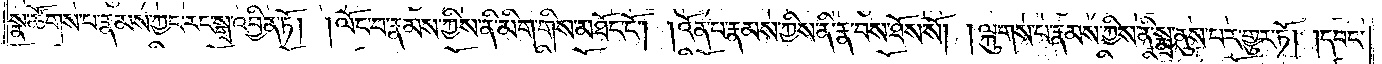སྣ་ཚོགས་པ་རྣམས་ཀྱང་རང་སྒྲ་འབྱིན་ཏོ། །ལོང་བ་རྣམས་ཀྱིས་ནི་མིག་གིས་མཐོང་ངོ༌། །འོན་པ་རྣམས་ཀྱིས་ནི་རྣ་བས་ཐོས་སོ། །ལྐུགས་པ་རྣམས་ཀྱིས་ནི་སྨྲ་ནུས་པར་གྱུར་ཏོ། །དབང་
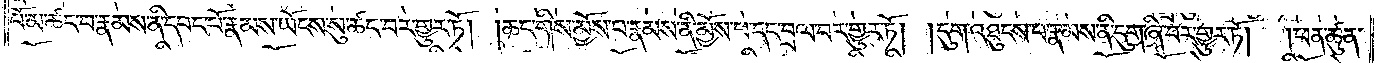པོ་མ་ཚང་བ་རྣམས་ནི་དབང་པོ་རྣམས་ཡོངས་སུ་ཚང་བར་གྱུར་ཏོ། །ཆང་གིས་མྱོས་པ་རྣམས་ནི་མྱོས་པ་དང་བྲལ་བར་གྱུར་ཏོ། །དུག་འཐུངས་པ་རྣམས་ནི་དུག་ཞི་བར་གྱུར་ཏོ།  །ཕན་ཚུན་
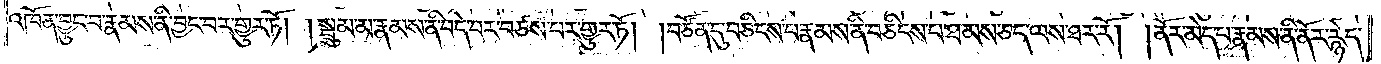འཁོན་བྱུང་བ་རྣམས་ནི་བྱང་བར་གྱུར་ཏོ། །སྦྲུམ་མ་རྣམས་ནི་བདེ་བར་བཙས་པར་གྱུར་ཏོ། །བཙོན་དུ་བཅིངས་པ་རྣམས་ནི་བཅིངས་པ་ཐམས་ཅད་ལས་ཐར་རོ། །ནོར་མེད་པ་རྣམས་ནི་ནོར་རྙེད་
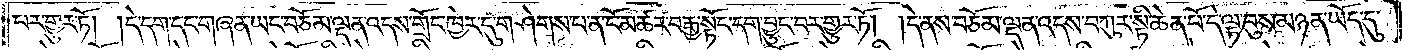པར་གྱུར་ཏོ། །དེ་དག་དང་གཞན་ཡང་བཅོམ་ལྡན་འདས་གྲོང་ཁྱེར་དུ་གཤེགས་པ་ན་ངོ་མཚར་བརྒྱ་སྟོང་དག་བྱུང་བར་གྱུར་ཏོ། །དེ་ནས་བཅོམ་ལྡན་འདས་བཀུར་སྟི་ཆེན་པོ་དེ་ལྟ་བུས་མཉན་ཡོད་དུ་
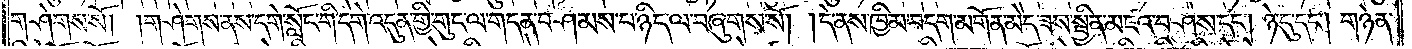གཤེགས་སོ། །གཤེགས་ནས་དགེ་སློང་གི་དགེ་འདུན་གྱི་གུང་ལ་གདན་བཤམས་པ་ཉིད་ལ་བཞུགས་སོ། །དེ་ནས་ཁྱིམ་བདག་མགོན་མེད་ཟས་སྦྱིན་མཛའ་བཤེས་དང༌། ཉེ་དུ་དང༌། གཉེན་
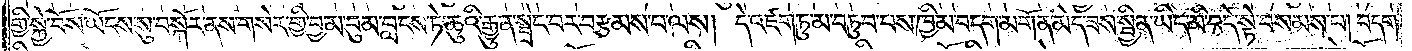གྱི་སྐྱེ་བོས་ཡོངས་སུ་བསྐོར་ནས་གསེར་གྱི་བྱ་མ་བུམ་བླངས་ཏེ་ཆུའི་རྒྱུན་སྦྲེང་བར་བརྩམས་པ་ལས། དེ་འཛག་ཏུ་མ་བཏུབ་པས་ཁྱིམ་བདག་མགོན་མེད་ཟས་སྦྱིན་ཡིད་མི་བདེ་སྟེ་བསམས་པ། བདག་
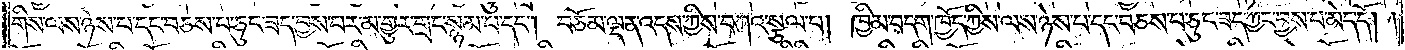གིས་ལས་ཉེས་པ་དང་བཅས་པ་ཅུང་ཟད་བྱས་བར་མ་གྱུར་གྲང་སྙམ་པ་དང༌། བཅོམ་ལྡན་འདས་ཀྱིས་བཀའ་སྩལ་པ། ཁྱིམ་བདག་ཁྱོད་ཀྱིས་ལས་ཉེས་པ་དང་བཅས་པ་ཅུང་ཟད་ཀྱང་བྱས་པ་མེད་དོ། །
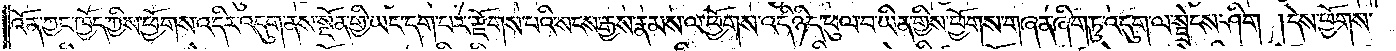འོན་ཀྱང་ཁྱོད་ཀྱིས་ཕྱོགས་འདིར་འདུག་ནས་སྔོན་གྱི་ཡང་དག་པར་རྫོགས་པའི་སངས་རྒྱས་རྣམས་ལ་ཕྱོགས་འདི་ཉིད་ཕུལ་བ་ཡིན་གྱིས་ཕྱོགས་གཞན་ཞིག་ཏུ་འདུག་ལ་སྦྲེངས་ཤིག །དེས་ཕྱོགས་
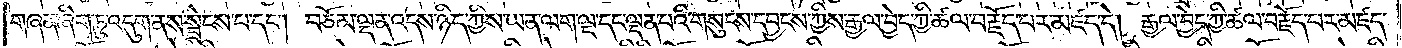གཞན་ཞིག་ཏུ་འདུག་ནས་སྦྲེངས་པ་དང༌། བཅོམ་ལྡན་འདས་ཉིད་ཀྱིས་ཡན་ལག་ལྔ་དང་ལྡན་པའི་གསུངས་དབྱངས་ཀྱིས་རྒྱལ་བྱེད་ཀྱི་ཚལ་བརྗོད་པར་མཛད་དེ། རྒྱལ་བྱེད་ཀྱི་ཚལ་བརྗོད་པར་མཛད་
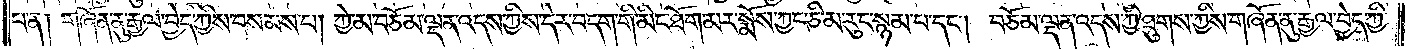པ་ན། གཞོན་ནུ་རྒྱལ་བྱེད་ཀྱིས་བསམས་པ། ཀྱེ་མ་བཅོམ་ལྡན་འདས་ཀྱིས་དེར་བདག་གི་མིང་ཐོག་མར་སྨོས་ཀྱང་ཅི་མ་རུང་སྙམ་པ་དང༌། བཅོམ་ལྡན་འདས་ཀྱི་ཐུགས་ཀྱིས་གཞོན་ནུ་རྒྱལ་བྱེད་ཀྱི་
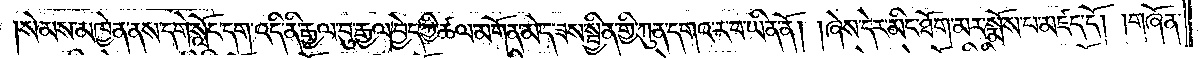སེམས་མཁྱེན་ནས་དགེ་སློང་དག་འདི་ནི་རྒྱལ་བུ་རྒྱལ་བྱེད་ཀྱི་ཚལ་མགོན་མེད་ཟས་སྦྱིན་གྱི་ཀུན་དགའ་ར་བ་ཡིན་ནོ། །ཞེས་དེར་མིང་ཐོག་མར་སྨོས་པ་མཛད་དོ། །གཞོན་
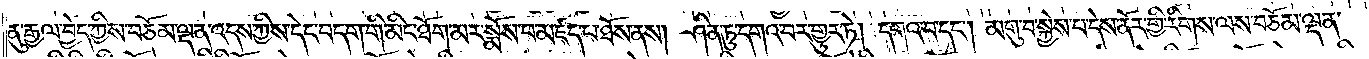ནུ་རྒྱལ་བྱེད་ཀྱིས་བཅོམ་ལྡན་འདས་ཀྱིས་དེང་བདག་གི་མིང་ཐོག་མར་སྨོས་པ་མཛད་པ་ཐོས་ནས། ཤིན་ཏུ་དགའ་བར་གྱུར་ཏེ། དགའ་བ་དང༌། མགུ་བ་སྐྱེས་པ་དེས་ནོར་གྱི་རིགས་ལས་བཅོམ་ལྡན་
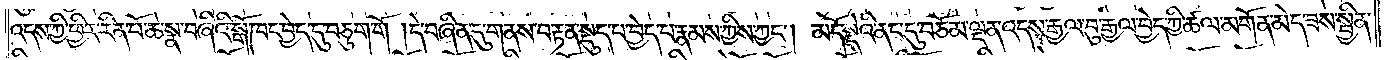འདས་ཀྱི་ཕྱིར་རིན་པོ་ཆེ་སྣ་བཞིའི་སྒོ་ཁང་བྱེད་དུ་བཅུག་གོ །དེ་བཞིན་དུ་གནས་བརྟན་སྡུད་པ་བྱེད་པ་རྣམས་ཀྱིས་ཀྱང༌། མདོ་སྡེའི་ནང་དུ་བཅོམ་ལྡན་འདས་རྒྱལ་བུ་རྒྱལ་བྱེད་ཀྱི་ཚལ་མགོན་མེད་ཟས་སྦྱིན་
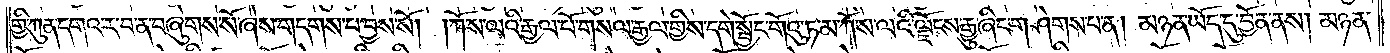གྱི་ཀུན་དགའ་ར་བ་ན་བཞུགས་སོ་ཞེས་གདགས་པ་བྱས་སོ། །ཀོ་ས་ལའི་རྒྱལ་པོ་གསལ་རྒྱལ་གྱིས་དགེ་སྦྱོང་གོའུ་ཏ་མ་ཀོ་ས་ལའི་ལྗོངས་རྒྱུ་ཞིང་གཤེགས་པ་ན། མཉན་ཡོད་དུ་བྱོན་ནས། མཉན་
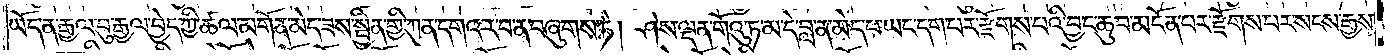ཡོད་ན་རྒྱལ་བུ་རྒྱལ་བྱེད་ཀྱི་ཚལ་མགོན་མེད་ཟས་སྦྱིན་གྱི་ཀུན་དགའ་ར་བ་ན་བཞུགས་ཏེ། ཤེས་ལྡན་གོའུ་ཏ་མ་དེ་བླ་ན་མེད་པ་ཡང་དག་པར་རྫོགས་པའི་བྱང་ཆུབ་མངོན་པར་རྫོགས་པར་སངས་རྒྱས་
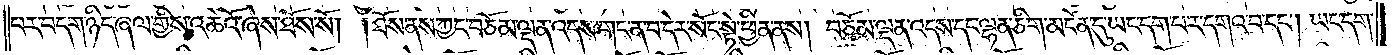པར་བདག་ཉིད་ཞལ་གྱིས་འཆེའོ་ཞེས་ཐོས་སོ། །ཐོས་ནས་ཀྱང་བཅོམ་ལྡན་འདས་གང་ན་བ་དེར་སོང་སྟེ་ཕྱིན་ནས། བཅོམ་ལྡན་འདས་དང་ལྷན་ཅིག་མངོན་དུ་ཡང་དག་པར་དགའ་བ་དང༌། ཡང་དག་
